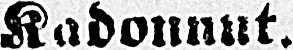Kadonnut.
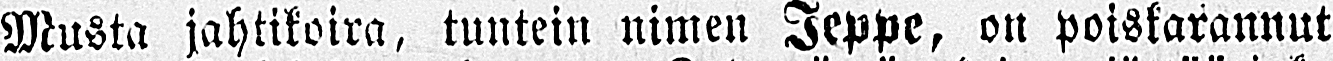Musta jahtikoira, tuntein nimen Jeppe, on poiskarannut
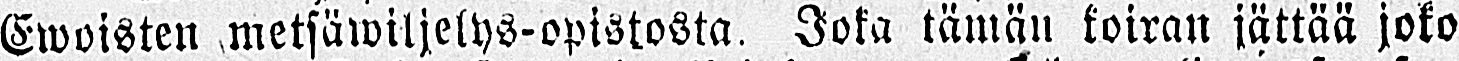Ewoisten metsäwiljelys-opistosta. Joka tämän koiran jättää joko
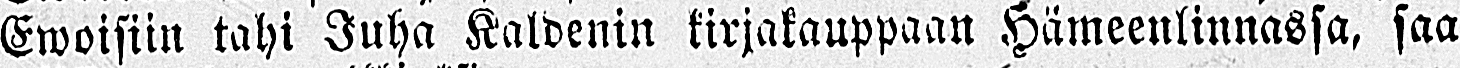Ewoisiin tahi Juha Kaldenin kirjakauppaan Hämeenlinnassa, saa
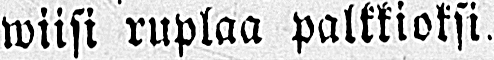wiisi ruplaa palkkioksi.
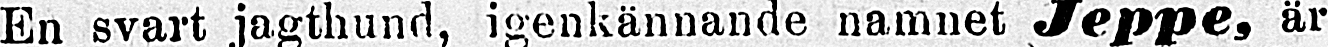En svart jagthund, igenkännande namnet Jeppe, är
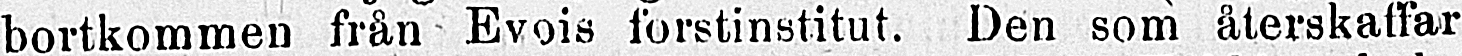bortkommen från Evois forstinstitut. Den som återskaffar
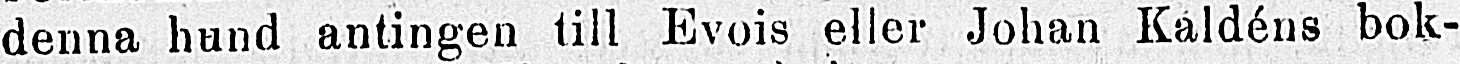denna hund antingen till Evois eller Johan Kaldéns bok-
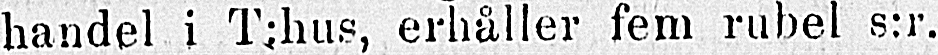handel i T:hus, erhåller fem rubel s:r.
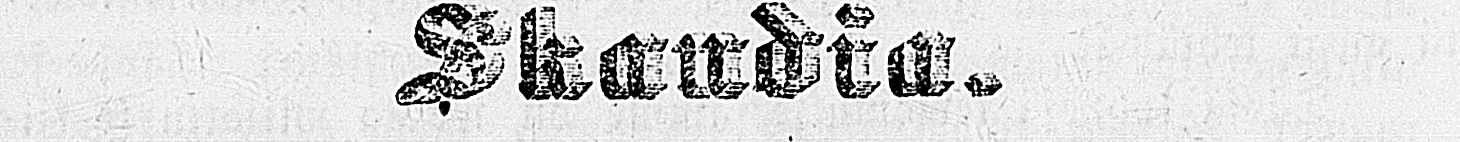Skandia.
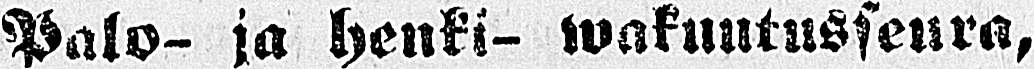Palo- ja henki- wakuutusseura,
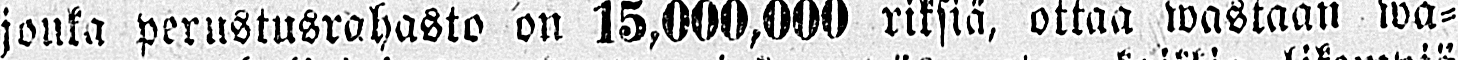jonka perustusrahasto on 15,000,000 riksiä, ottaa wastaan wa-
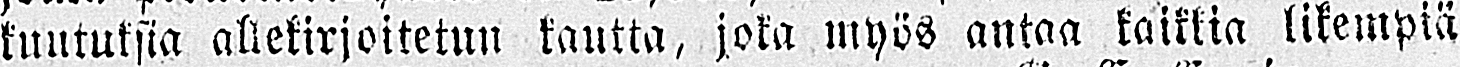kuutuksia allekirjoitetun kautta, joka myös antaa kaikkia likempiä
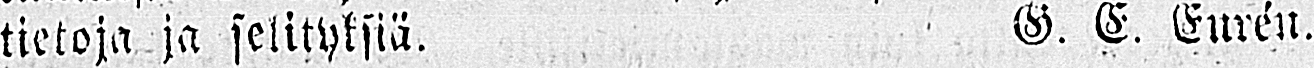tietoja ja selityksiä. G. E. Eurén.
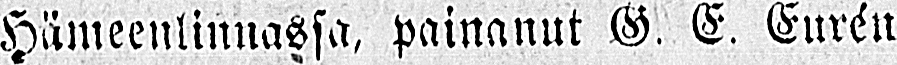Hämeenlinnassa, painanut G. E. Eurén.
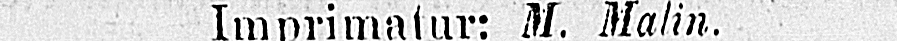Imprimatur: M. Malin.
